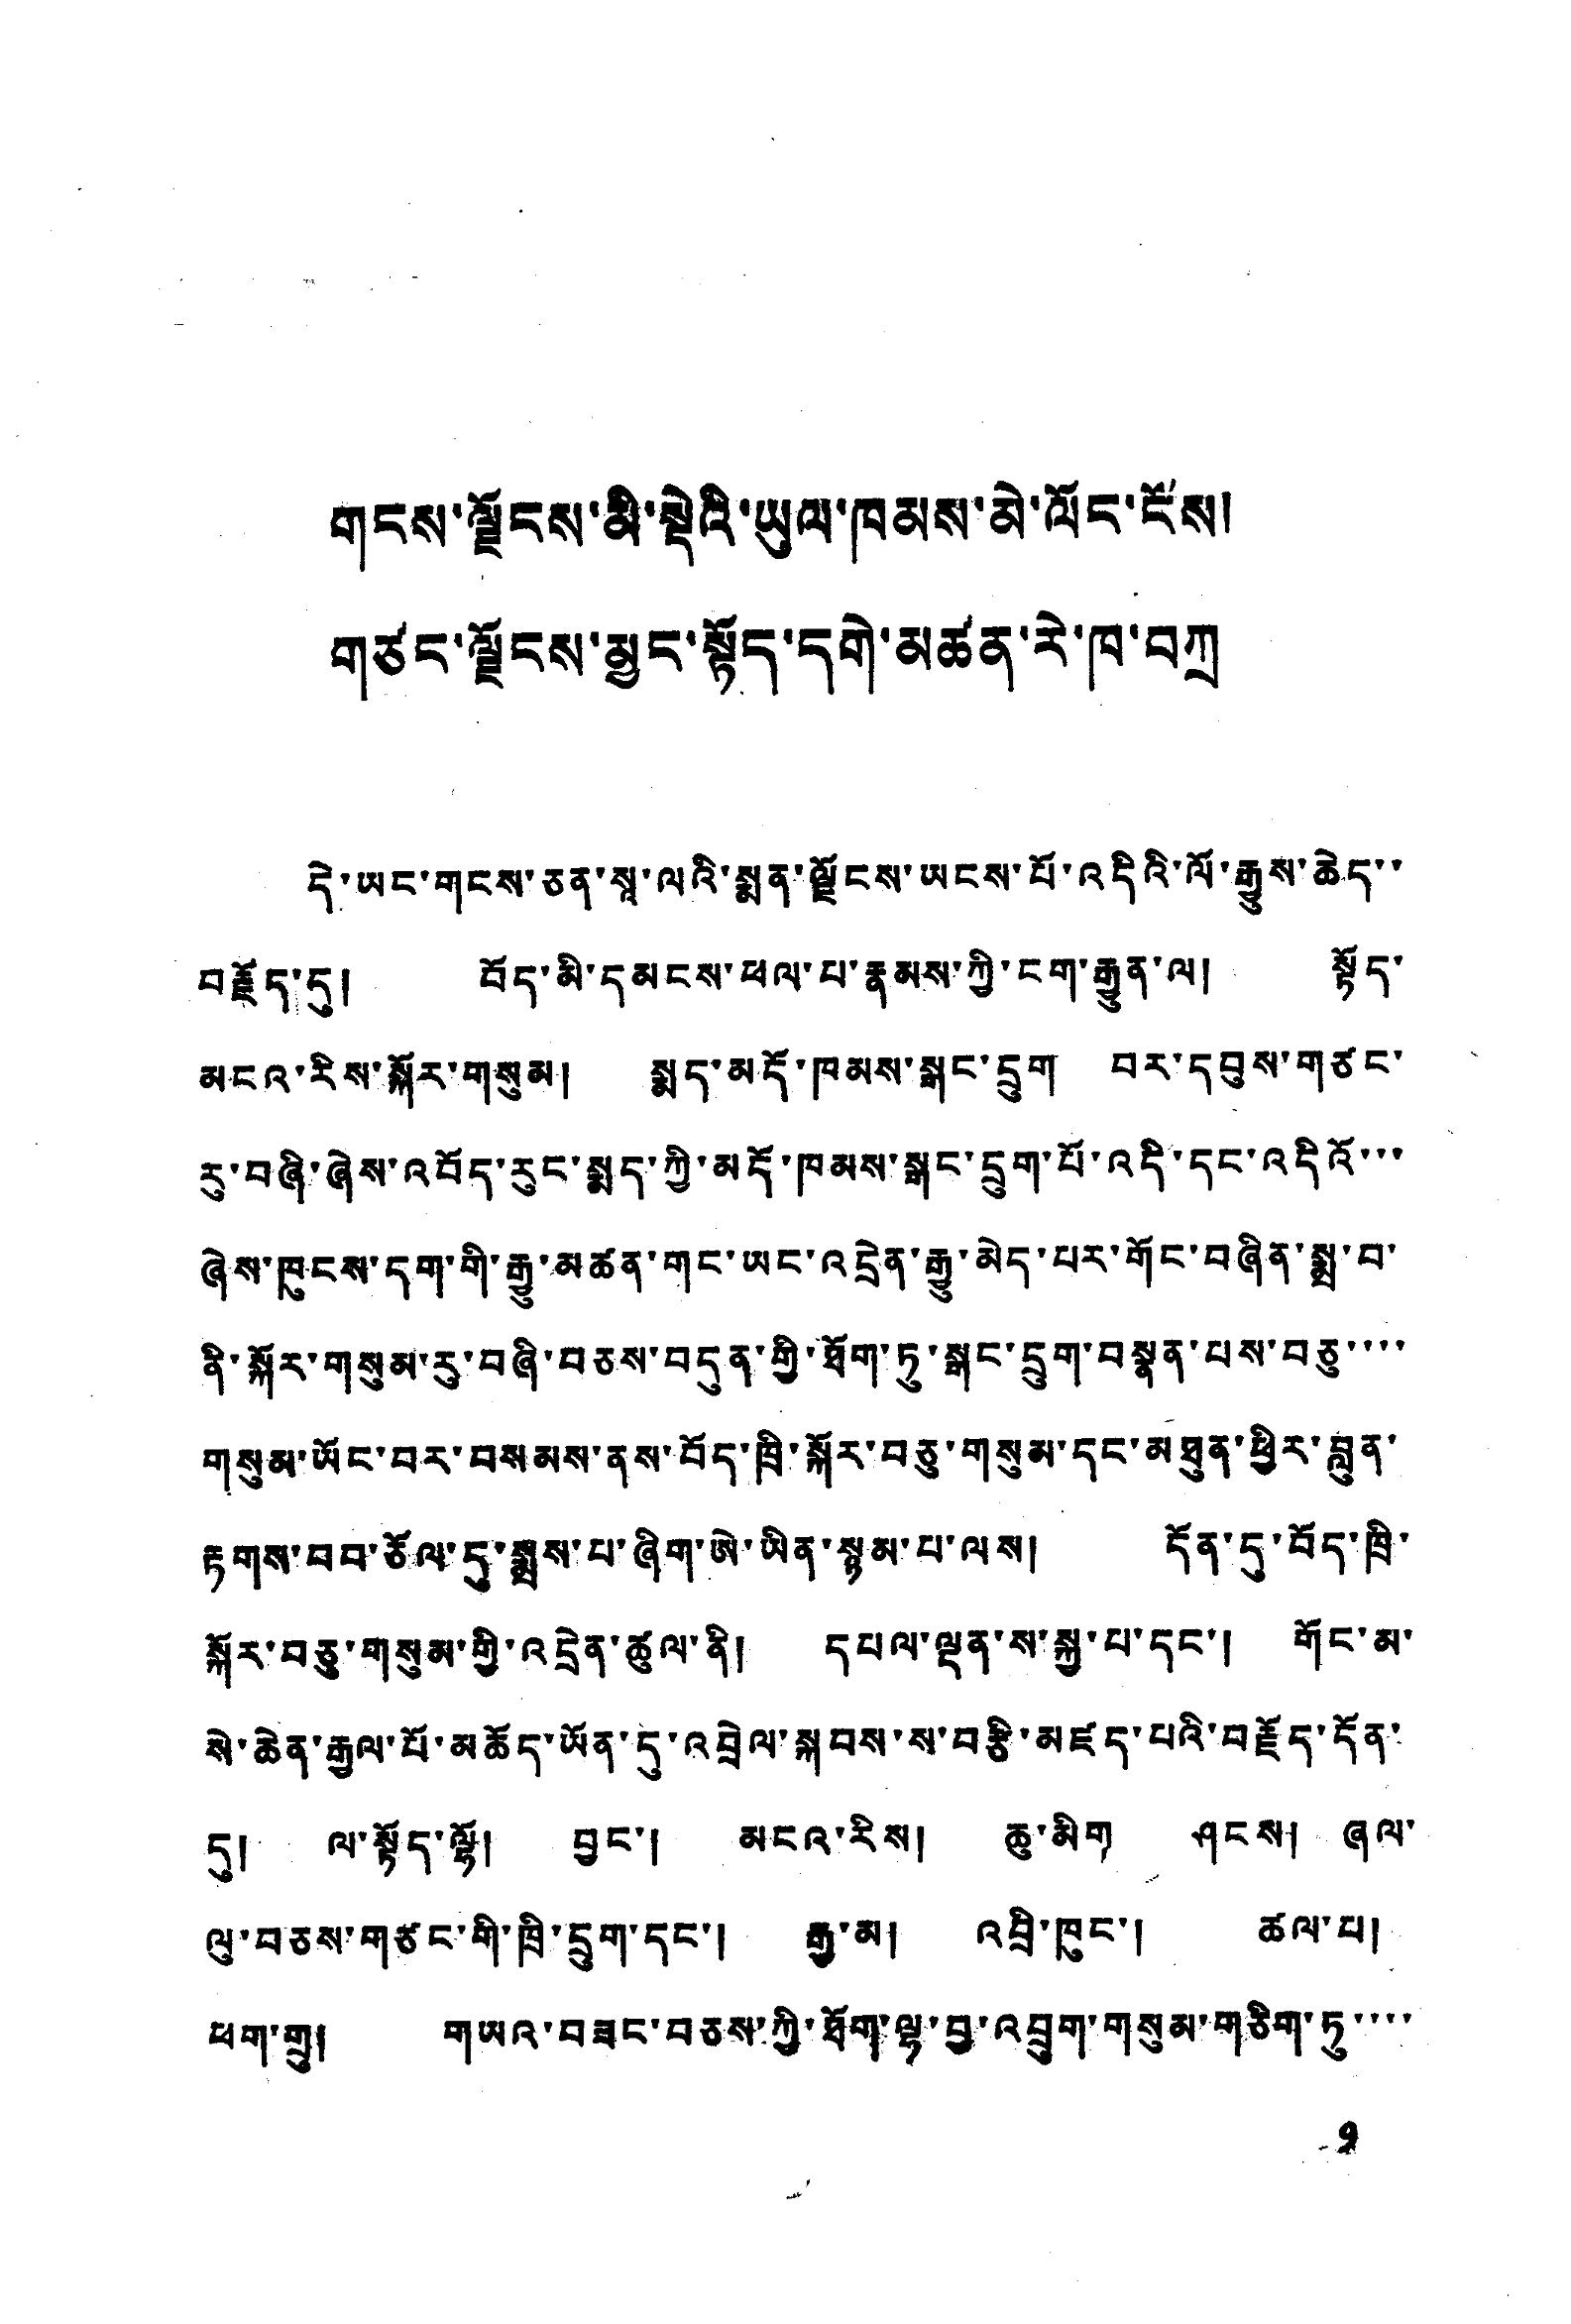གངས་ལྗོངས་མི་སྡེའི་ཡུལ་ཁམས་མེ་ལོང་ངོས།
གཙང་ལྗོངས་མྱང་སྟོད་དགེ་མཚན་རེ་ཁ་བཀྲ
དེ་ཡང་གངས་ཅན་སའ་ལའི་སྨན་ལྗོངས་ཡངས་པོ་འདིའི་ལོ་རྒྱུས་ཆེད་་
བརྗོད་དུ། བོད་མི་དམངས་ཕལ་པ་རྣམས་ཀྱི་ངག་རྒྱུན་ལ། སྟོད་
མངའ་རིས་སྐོར་གསུམ། སྨད་མདོ་ཁམས་སྒང་དྲུག བར་དབུས་གཙང་
རུ་བཞི་ཞེས་འབོད་རུང་སྨད་ཀྱི་མདོ་ཁམས་སྒང་དྲུག་པོ་འདི་ད་འདིའོ་་་
ཞེས་ཁུངས་དག་གི་རྒྱུ་མཚན་གང་ཡང་འདྲེན་རྒྱུ་མེད་པར་གོང་བཞིན་སྨྲ་བ་
ནི་སྐོར་གསུམ་རུ་བཞི་བཅས་བདུན་གྱི་ཐོག་ཏུ་སྒང་དྲུག་བསྣན་པས་བཅུ་་་་
གསུམ་ཡོང་བར་བསམས་ནས་བོད་ཁྲི་སྐོར་བཅུ་གསུམ་དང་མཐུན་ཕྱིར་བླུན་
རྟགས་བབ་ཅོལ་དུ་སྨྲས་པ་ཞིག་ཨེ་ཡིན་སྙམ་པ་ལས། དོན་དུ་བོད་ཁྲི་
སྐོར་བཅུ་གསུམ་གྱི་འདྲེན་ཚུལ་ནི། དཔལ་ལྡན་ས་སྐྱ་པ་དང་། གོང་མ་
སེ་ཆེན་རྒྱལ་པོ་མཆོད་ཡོན་དུ་འབྲེལ་སྐབས་ས་བརྩི་མཛད་པའི་བརྗོད་དོན་
དུ། ལ་སྟོད་ལྷོ། བྱང་། མངའ་རིས། ཆུ་མིག ཤངས། ཞལ་
ལུ་བཅས་གཙང་གི་ཁྲི་དྲུག་དང་། རྒྱ་མ། འབྲི་ཁུང་། ཚལ་པ།
ཕག་གྲུ། གཡའ་བཟང་བཅས་ཀྱི་ཐོག་ལྷ་བྱ་འབྲུག་གསུམ་གཅིག་ཏུ་་་
9
